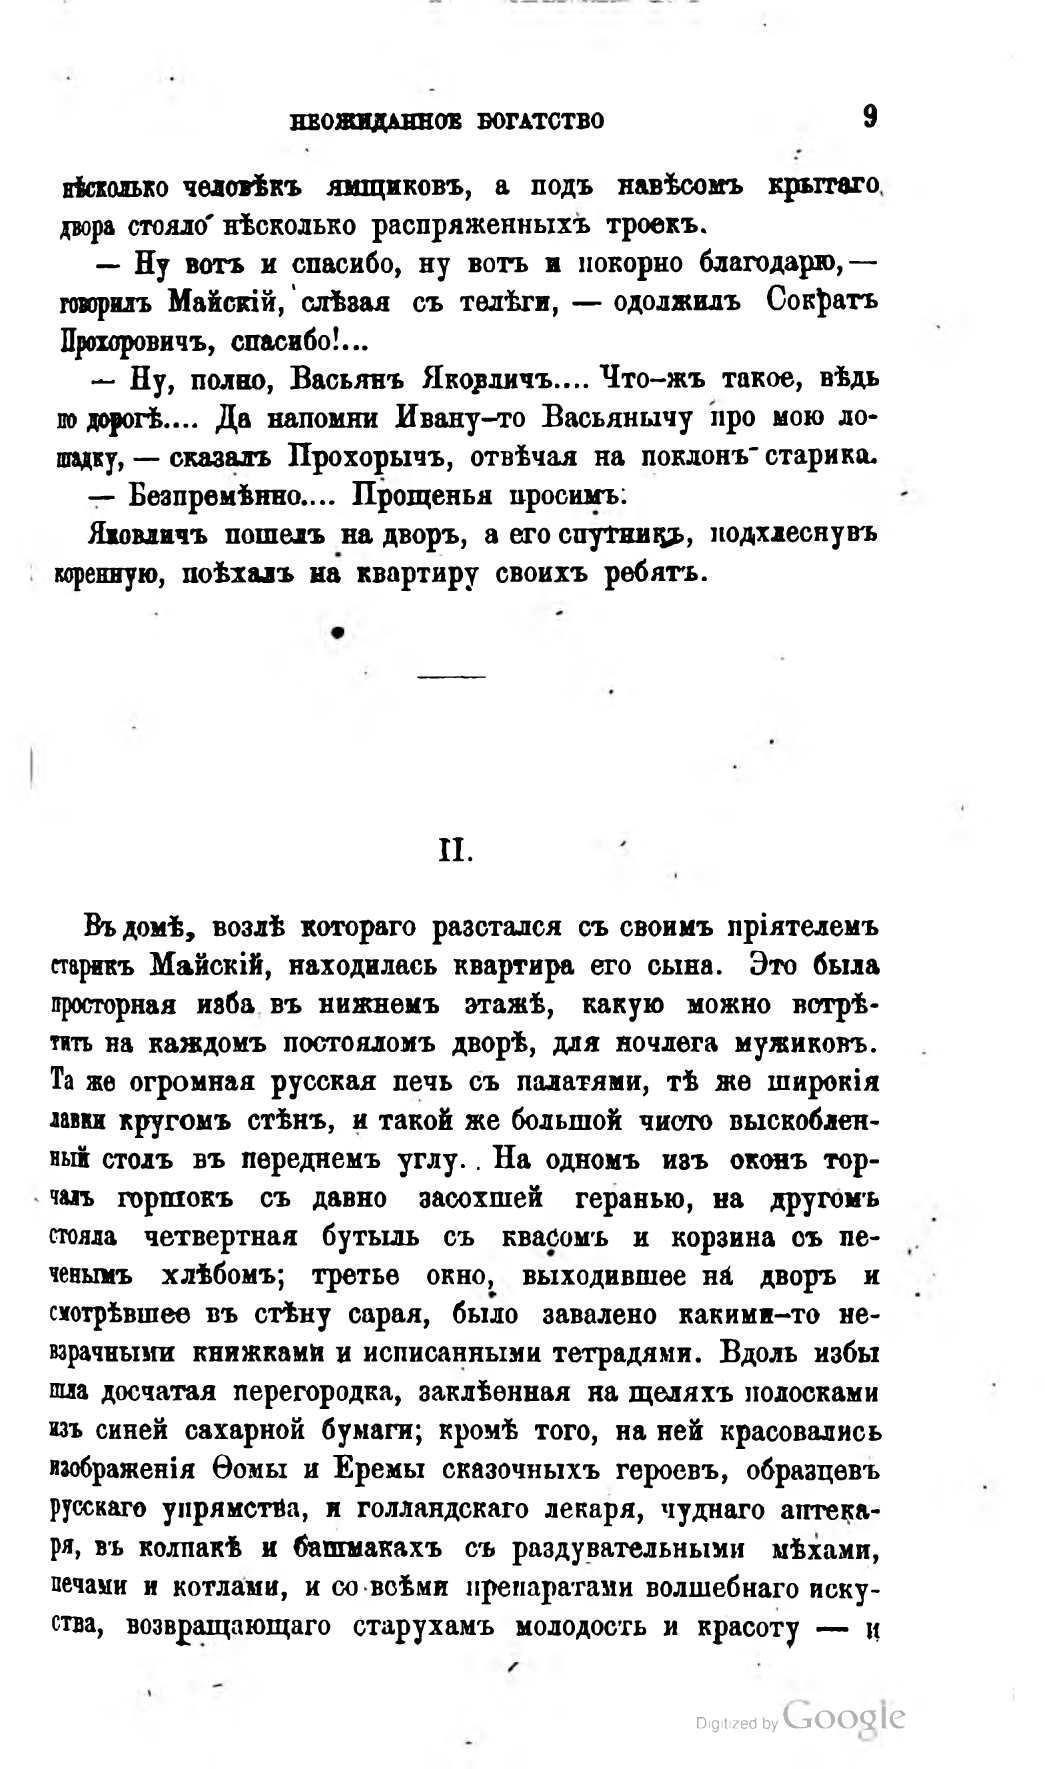НЕОЖИДАННОЕ БОГАТСТВО                          9
нѣсколько человѣкъ ямщиковъ, а подъ навѣсомъ крытаго двора стояло нѣсколько распряженныхъ троекъ.
— Ну вотъ и спасибо, ну вотъ и покорно благодарю, — говорилъ Майскій, слѣзая съ телѣги, — одолжилъ Сократъ Прохоровичъ, спасибо!...
— Ну, полно, Васьянъ Яковличъ... Что-жъ такое, вѣдь по дорогѣ... Да напомни Ивану-то Васьянычу про мою лошадку, — сказалъ Прохорычъ, отвѣчая на поклонъ старика.
— Безпремѣнно... Прощенья просимъ.
Яковличъ пошелъ на дворъ, а его спутникъ, подхлеснувъ коренную, поѣхалъ на квартиру своихъ ребятъ.
II.
Въ домѣ, возлѣ котораго разстался съ своимъ пріятелемъ старикъ Майскій, находилась квартира его сына. Это была просторная изба въ нижнемъ этажѣ, какую можно встрѣтить на каждомъ постояломъ дворѣ, для ночлега мужиковъ. Та же огромная русская печь съ палатями, тѣ же широкія лавки кругомъ стѣнъ, и такой же большой чисто выскобленный столъ въ переднемъ углу.. На одномъ изъ оконъ торчалъ горшокъ съ давно засохшей геранью, на другомъ стояла четвертная бутыль съ квасомъ и корзина съ печенымъ хлѣбомъ; третье окно, выходившее на дворъ и смотрѣвшее въ стѣну сарая, было завалено какими-то невзрачными книжками и исписанными тетрадями. Вдоль избы шла досчатая перегородка, заклѣенная на щеляхъ полосками изъ синей сахарной бумаги; кромѣ того, на ней красовались изображенія Ѳомы и Еремы сказочныхъ героевъ, образцевъ русскаго упрямства, и голландскаго лекаря, чуднаго аптекаря, въ колпакѣ и башмакахъ съ раздувательными мѣхами, печами и котлами, и со всѣми препаратами волшебнаго искуства, возвращающаго старухамъ молодость и красоту — и
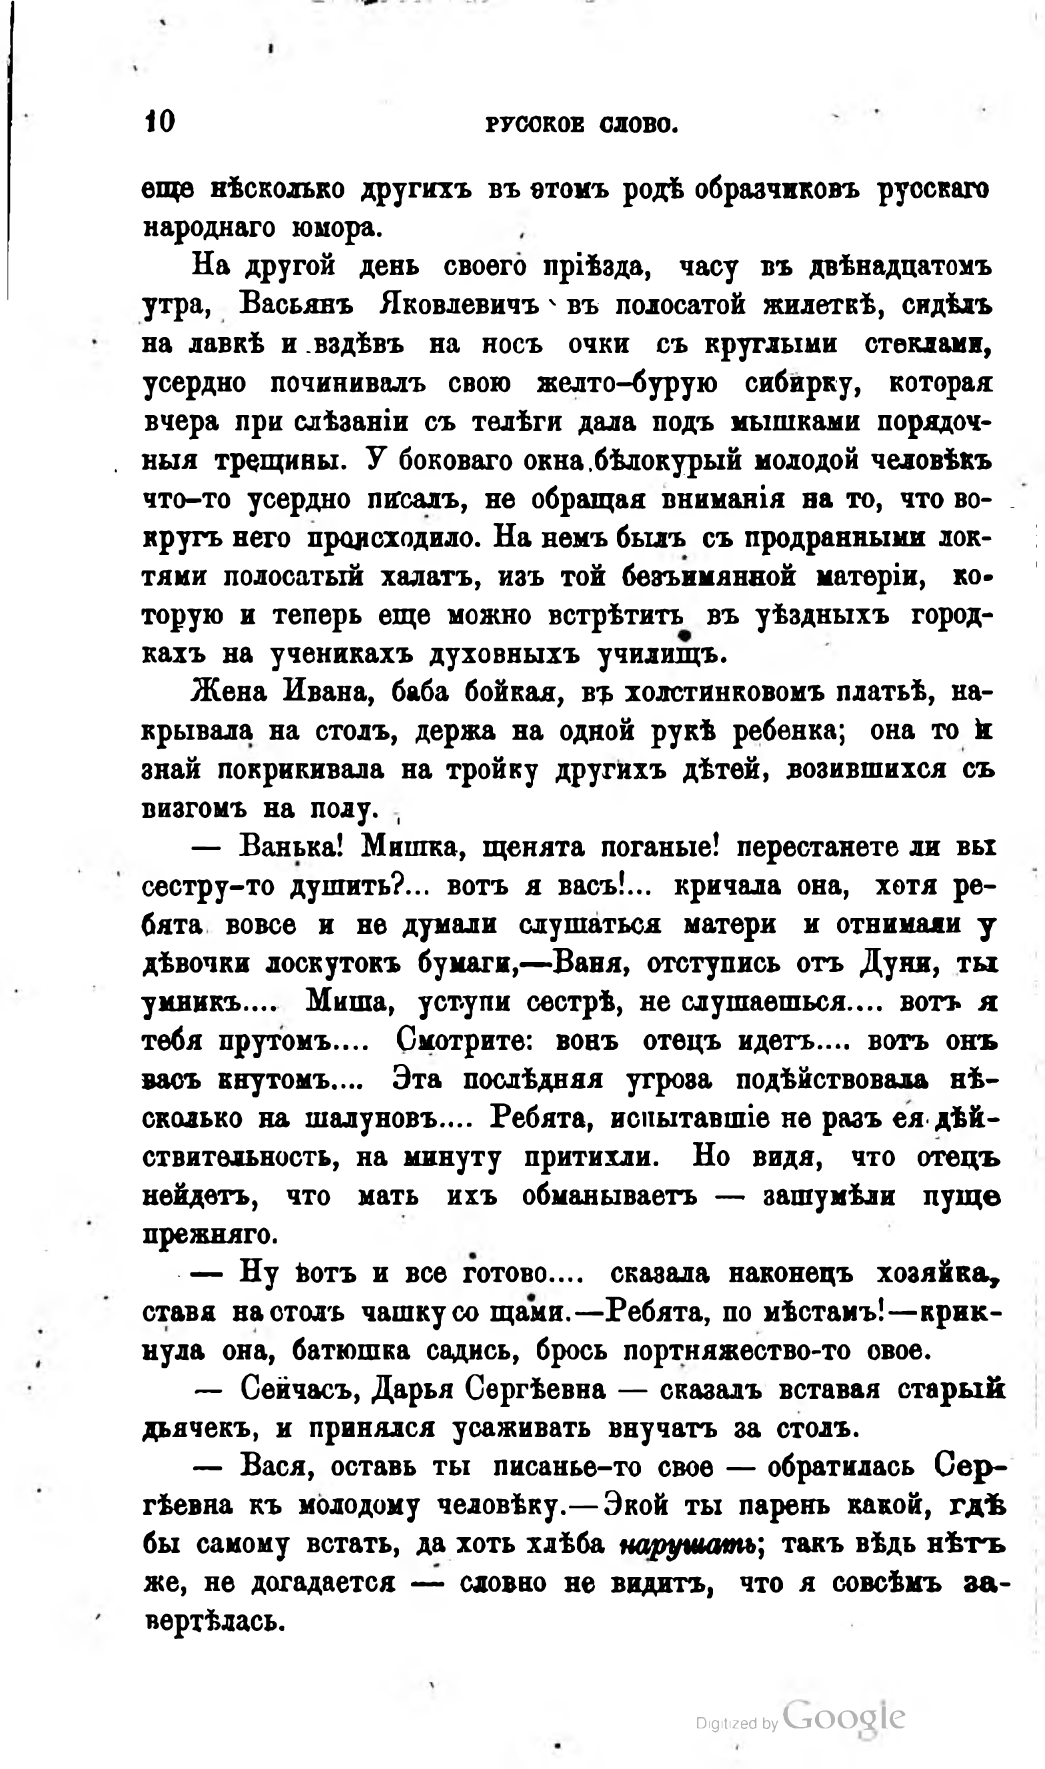10                      РУССКОЕ СЛОВО.
еще нѣсколько другихъ въ этомъ родѣ образчиковъ русскаго народнаго юмора.
На другой день своего пріѣзда, часу въ двѣнадцатомъ утра, Васьянъ Яковлевичъ въ полосатой жилеткѣ, сидѣлъ на лавкѣ и вздѣвъ на носъ очки съ круглыми стеклами, усердно починивалъ свою желто-бурую сибирку, которая вчера при слѣзаніи съ телѣги дала подъ мышками порядочныя трещины. У боковаго окна бѣлокурый молодой человѣкъ что-то усердно писалъ, не обращая вниманія на то, что вокругъ него происходило. На немъ былъ съ продранными локтями полосатый халатъ, изъ той безъимянной матеріи, которую и теперь еще можно встрѣтить въ уѣздныхъ городкахъ на ученикахъ духовныхъ училищъ.
Жена Ивана, баба бойкая, въ холстинковомъ платьѣ, накрывала на столъ, держа на одной рукѣ ребенка; она то и знай покрикивала на тройку другихъ дѣтей, возившихся съ визгомъ на полу.
— Ванька! Мишка, щенята поганые! перестанете ли вы сестру-то душить?... вотъ я васъ!... кричала она, хотя ребята вовсе и не думали слушаться матери и отнимали у дѣвочки лоскутокъ бумаги, — Ваня, отступись отъ Дуни, ты умникъ... Миша, уступи сестрѣ, не слушаешься... вотъ я тебя прутомъ... Смотрите: вонъ отецъ идетъ... вотъ онъ васъ кнутомъ... Эта послѣдняя угроза подѣйствовала нѣсколько на шалуновъ... Ребята, испытавшіе не разъ ея дѣйствительность, на минуту притихли. Но видя, что отецъ нейдетъ, что мать ихъ обманываетъ — зашумѣли пуще прежняго.
— Ну вотъ и все готово... сказала наконецъ хозяйка, ставя на столъ чашку со щами. — Ребята, по мѣстамъ! — крикнула она, батюшка садись, брось портняжество-то свое.
— Сейчасъ, Дарья Сергѣевна — сказалъ вставая старый дьячекъ, и принялся усаживать внучатъ за столъ.
— Вася, оставь ты писанье-то свое — обратилась Сергѣевна къ молодому человѣку. — Экой ты парень какой, гдѣ бы самому встать, да хоть хлѣба нарушать; такъ вѣдь нѣтъ же, не догадается — словно не видитъ, что я совсѣмъ завертѣлась.
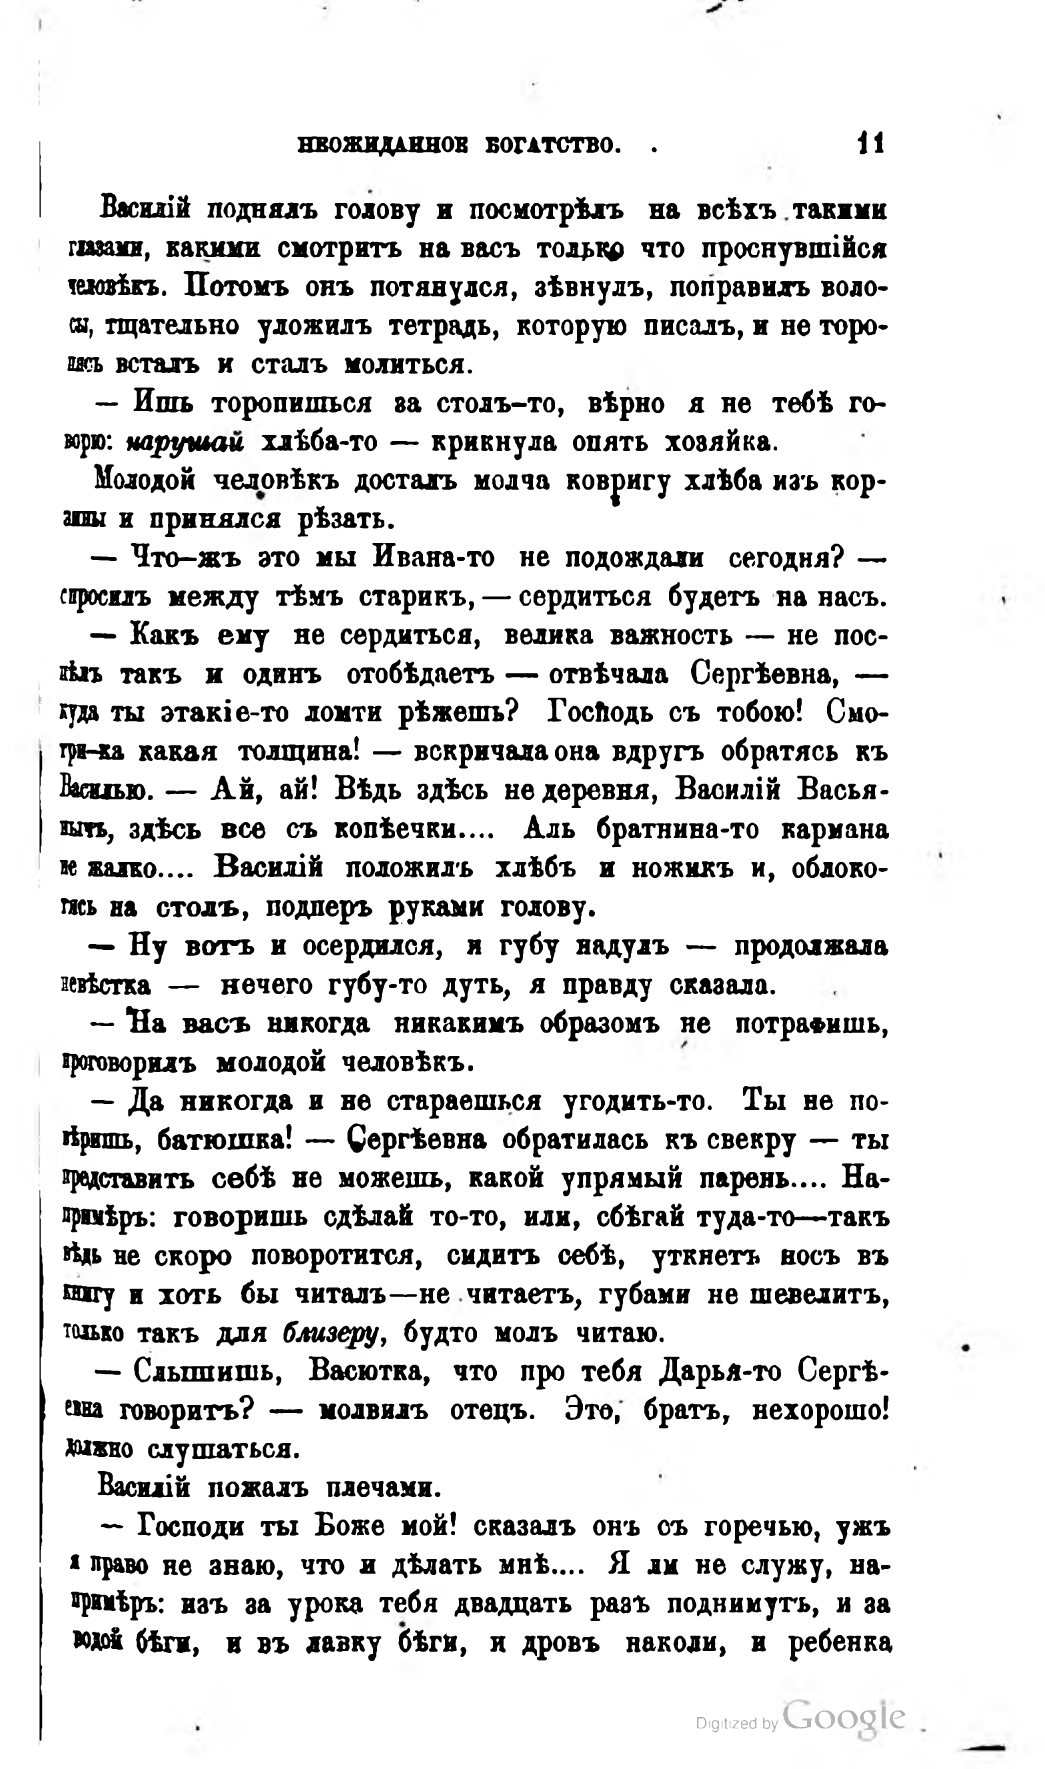НЕОЖИДАННОЕ БОГАТСТВО.                     11
Василій поднялъ голову и посмотрѣлъ на всѣхъ такими глазами, какими смотритъ на васъ только что проснувшійся человѣкъ. Потомъ онъ потянулся, зѣвнулъ, поправилъ волосы, тщательно уложилъ тетрадь, которую писалъ, и не торопясь всталъ и сталъ молиться.
— Ишь торопишься за столъ-то, вѣрно я не тебѣ говорю: нарушай хлѣба-то — крикнула опять хозяйка.
Молодой человѣкъ досталъ молча ковригу хлѣба изъ корзины и принялся рѣзать.
— Что-жъ это мы Ивана-то не подождали сегодня? — спросилъ между тѣмъ старикъ, — сердиться будетъ на насъ.
— Какъ ему не сердиться, велика важность — не поспѣлъ такъ и одинъ отобѣдаетъ — отвѣчала Сергѣевна, — куда ты этакіе-то ломти рѣжешь? Господь съ тобою! Смотри-ка какая толщина! — вскричала она вдругъ обратясь къ Василью. — Ай, ай! Вѣдь здѣсь не деревня, Василій Васьянычъ, здѣсь все съ копѣечки... Аль братнина-то кармана не жалко… Василій положилъ хлѣбъ и ножикъ и, облокотясь на столъ, подперъ руками голову.
— Ну вотъ и осердился, и губу надулъ — продолжала невѣстка — нечего губу-то дуть, я правду сказала.
— Да васъ никогда никакимъ образомъ не потрафишь, проговорилъ молодой человѣкъ.
— Да никогда и не стараешься угодить-то. Ты не повѣришь, батюшка! — Сергѣевна обратилась къ свекру — ты представить себѣ не можешь, какой упрямый парень... Напримѣръ: говоришь сдѣлай то-то, или, сбѣгай туда-то — такъ вѣдь не скоро поворотится, сидитъ себѣ, уткнетъ носъ въ книгу и хоть бы читалъ — не читаетъ, губами не шевелитъ, только такъ для близеру, будто молъ читаю.
— Слышишь, Васютка, что про тебя Дарья-то Сергѣевна говоритъ? — молвилъ отецъ. Это, братъ, нехорошо! должно слушаться.
Василій пожалъ плечами.
— Господи ты Боже мой! сказалъ онъ съ горечью, ужъ я право не знаю, что и дѣлать мнѣ... Я ли не служу, напримѣръ: изъ за урока тебя двадцать разъ поднимутъ, и за водой бѣги, и въ лавку бѣги, и дровъ наколи, и ребенка
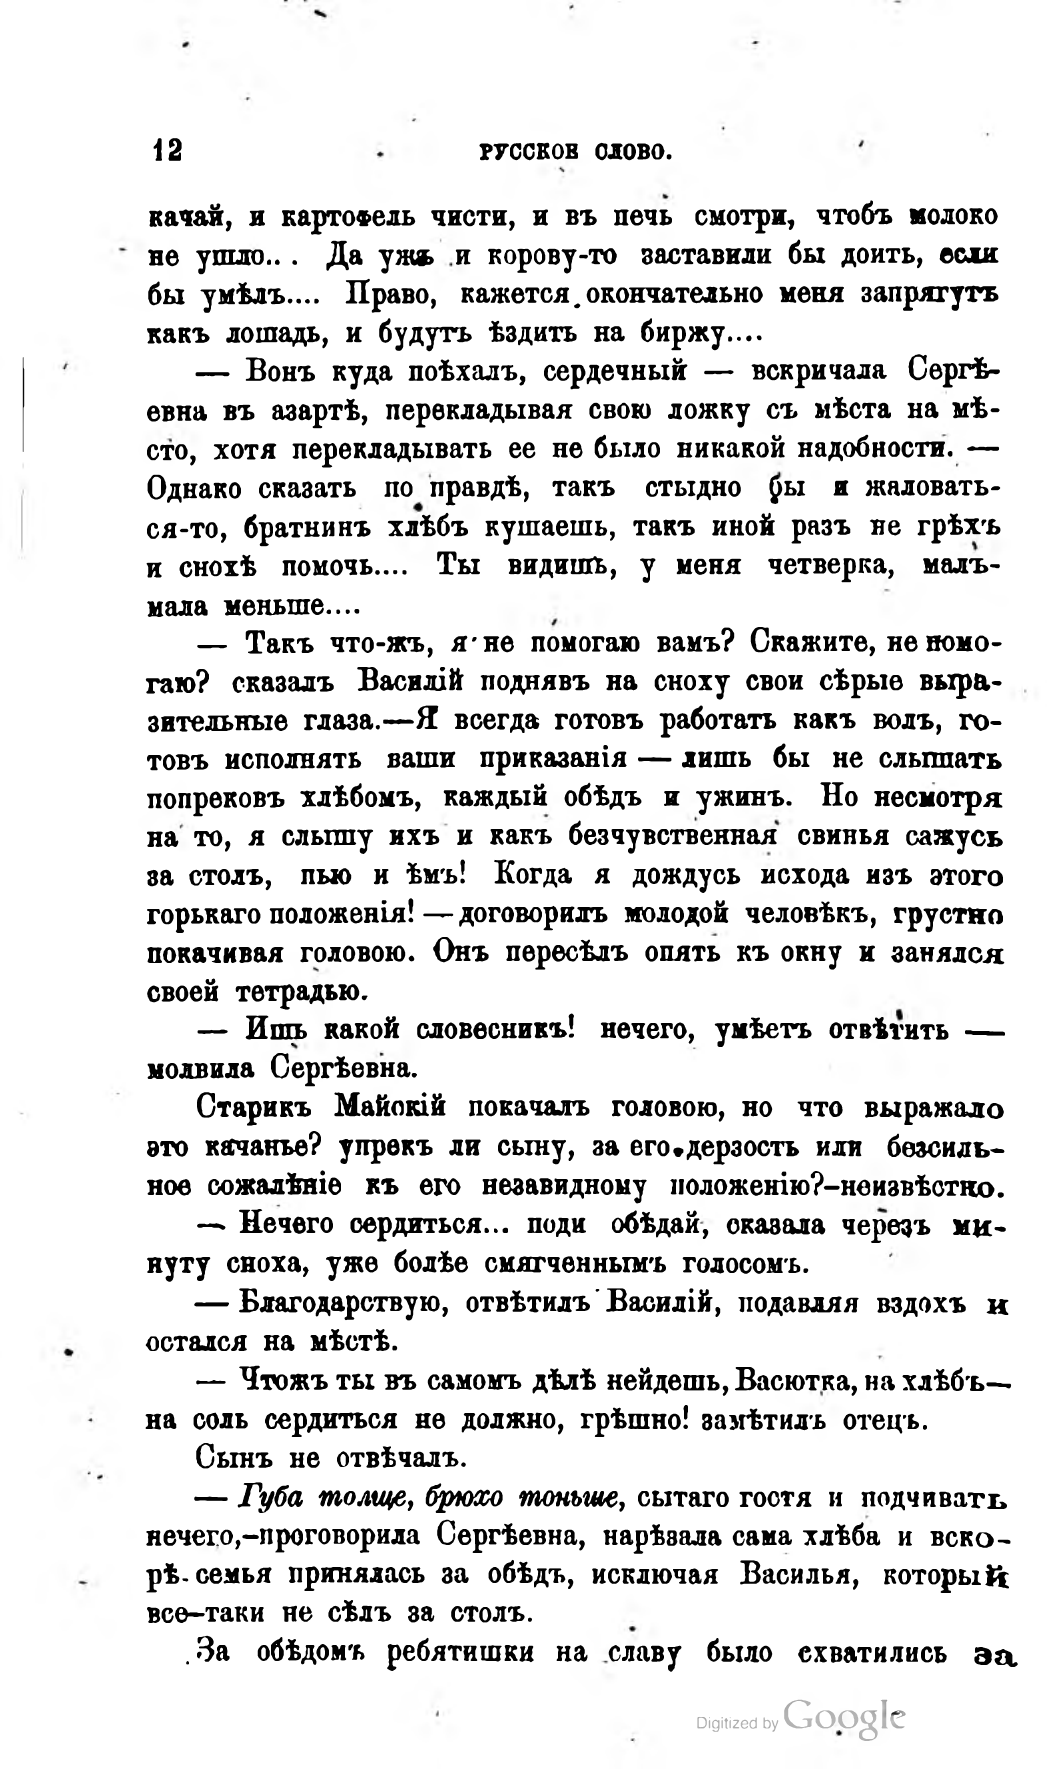12                     РУССКОЕ СЛОВО.
качай, и картофель чисти, и въ печь смотри, чтобъ молоко не ушло... Да ужъ и корову-то заставили бы доить, если бы умѣлъ... Право, кажется окончательно меня запрягутъ какъ лошадь, и будутъ ѣздить на биржу...
— Вонъ куда поѣхалъ, сердечный — вскричала Сергѣевна въ азартѣ, перекладывая свою ложку съ мѣста на мѣсто, хотя перекладывать ее не было никакой надобности. — Однако сказать по правдѣ, такъ стыдно бы и жаловаться-то, братнинъ хлѣбъ кушаешь, такъ иной разъ не грѣхъ и снохѣ помочь... Ты видишь, у меня четверка, малъ-мала меньше…
— Такъ что-жъ, я не помогаю вамъ? Скажите, не помогаю? сказалъ Василій поднявъ на сноху свои сѣрые выразительные глаза. — Я всегда готовъ работать какъ волъ, готовъ исполнять ваши приказанія — лишь бы не слышать попрековъ хлѣбомъ, каждый обѣдъ и ужинъ. Но несмотря на то, я слышу ихъ и какъ безчувственная свинья сажусь за столъ, пью и ѣмъ! Когда я дождусь исхода изъ этого горькаго положенія! — договорилъ молодой человѣкъ, грустно покачивая головою. Онъ пересѣлъ опять къ окну и занялся своей тетрадью.
— Ищь какой словесникъ! нечего, умѣетъ отвѣтить — молвила Сергѣевна.
Старикъ Майскій покачалъ головою, но что выражало это качанье? упрекъ ли сыну, за его дерзость или безсильное сожалѣніе къ его незавидному положенію? — неизвѣотно.
— Нечего сердиться... поди обѣдай, сказала черезъ минуту сноха, уже болѣе смягченнымъ голосомъ.
— Благодарствую, отвѣтилъ Василій, подавляя вздохъ и остался на мѣстѣ.
— Чтожъ ты въ самомъ дѣлѣ нейдешь, Васютка, на хлѣбъ — на соль сердиться не должно, грѣшно! замѣтилъ отецъ.
Сынъ не отвѣчалъ.
— Губа толще, брюхо тоньше, сытаго гостя и подчивать нечего, — проговорила Сергѣевна, нарѣзала сама хлѣба и вскорѣ семья принялась за обѣдъ, исключая Василья, который все-таки не сѣлъ за столъ.
За обѣдомъ ребятишки на славу было схватились за